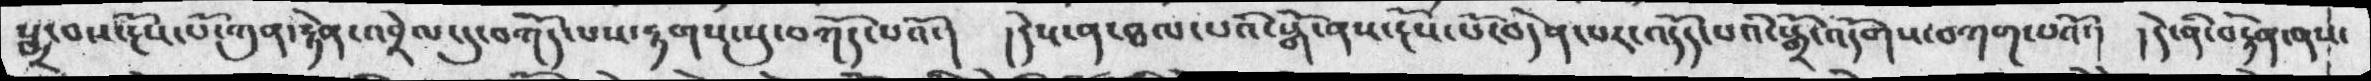སྨྲ་བས་རྔོས་པོ་ཀུན་རྟེན་འབྲེལ་དུ་བཀོད་པས་རྟགས་སུ་བཀོད་པའོ་།  །དེས་ན་ཐལ་པའི་སྒོ་ནས་རྔོས་པོ་བདེན་པར་འདོད་པའི་སྒྲོ་འདོགས་བཀག་པའོ་།  །དེ་ནི་བརྟེན་ནས་
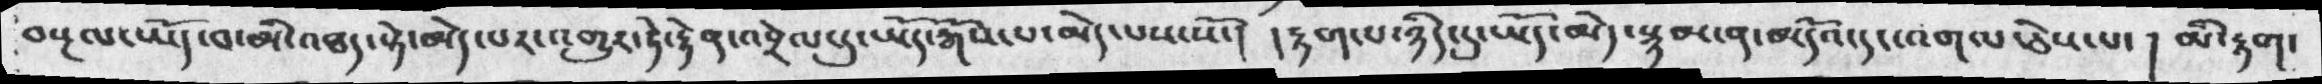བསྔལ་ཡོད་བ་མི་འཐད་སྟེ་མེད་པར་འགྱུར་ཏེ་རྟེན་འབྲེལ་དུ་ཡོད་རྒོས་པ་མེད་པས་སོ་། །རྟག་པ་ཉིད་དུ་ཡོད་མེད་སྙམ་ན་མདོའ་དང་འགལ་ཅེས་པ་། མི་རྟག་
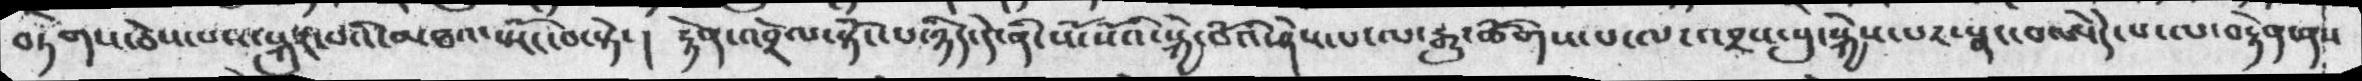བཏགས་ཅེས་པས་སྐུར་བའི་མཐའ་སྤོང་བ་སྟེ་།  རྟེན་འབྲེལ་སྟོང་པ་ཉིད་དེ་ནི་སོ་སོའི་སྐྱེ་བོའི་ཤེས་པ་ལ་རྒྱུ་ཚོགས་པ་ལ་འབྲས་བུ་སྐྱེས་པར་སྣང་བ་ཨེདེ་པ་ལ་བརྟེན་ནས
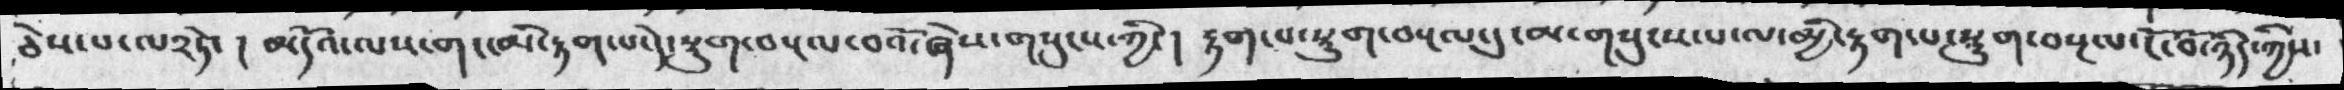ཅེས་པ་ལ༢ཏེ་།  མདོའ་ལས་གང་མི་རྟག་པ་དེ་སྡུག་བསྔལ་བའོ་ཞེས་གསུངས་ཀྱི་། རྟག་པ་སྡུག་བསྔལ་དུ་མ་གསུངས་པ་ལ་མྱི་རྟག་པ་སྡུག་བསྔལ་ངོ་བོ་ཉིད་ཀྱིས་
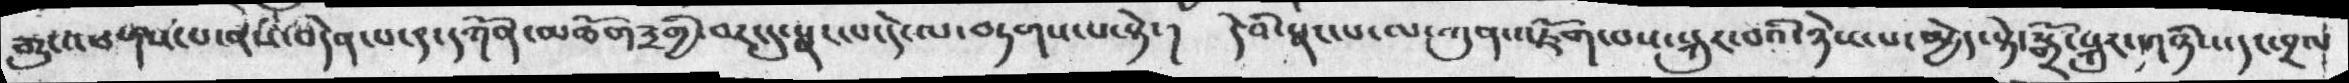རྒྱུ་འཕགས་པ་ནས་བདེན་པ་༩་དཀོན་མཆོག༣གྱི་བར་དུ་སྣང་པ་དེ་ལ་བཏགས་པ་སྟེ་།  དེའི་སྣང་པ་ལ་ཀུན་འཇོག་པས་སྐུར་བའི་ཉེས་པ་མྱེད་སྟེ་སྒྲོ་སྐུར་གཉིས་དང་བྲལ
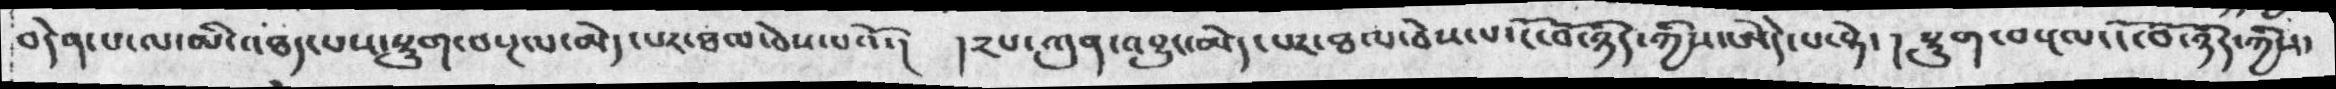བདེན་པ་ལ་མི་འཐད་པས་སྡུག་བསྔལ་མེད་པར་ཐལ་ཅེས་པའོ་།  །༢པ་ཀུན་འབྱུང་མེད་པར་ཐལ་ཅེས་པ་ངོ་བོ་ཉིད་ཀྱིས་ཨེདེ་པ་སྟེ་། སྡུག་བསྔལ་ངོ་བོ་ཉིད་ཀྱིས་
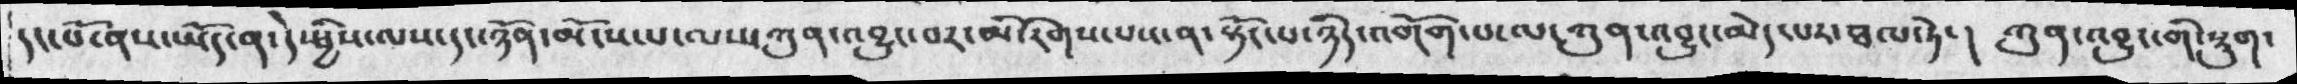དང་པོ་ནས་ཡོད་ན་དེ་ཕྱིས་ལས་དང་ཉོན་མོངས་པ་ལས་ཀུན་འབྱུང་བར་མི་རིགས་པས་ན་སྟོང་པ་ཉིད་འགོག་པ་ལ་ཀུན་འབྱུང་མེད་པར་ཐལ་ཏེ་། ཀུན་འབྱུང་གི་སྡུག་
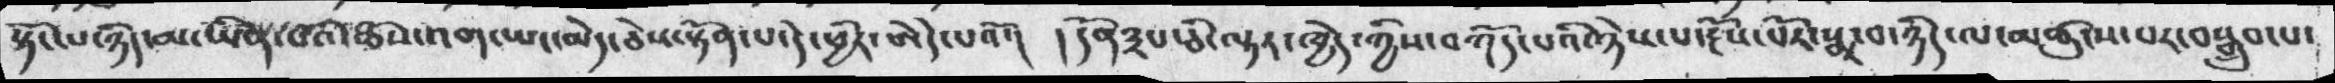སྟོང་པ་ཉིད་མ་ཡིན་པའི་ཆོས་འག་ཡང་མེད་ཅེས་སྟོན་པ་དེ་ཕྱིར་ཨེདེ་པའོ་།  །དོན༣པ་ཅི་ལྟར་ཁྱེད་ཀྱིས་བཀོད་པའི་ཉེས་པ་རྔོས་པོར་སྨྲ་བ་ཉིད་ལ་མཚུངས་པར་བསྒྲུབ་པ་
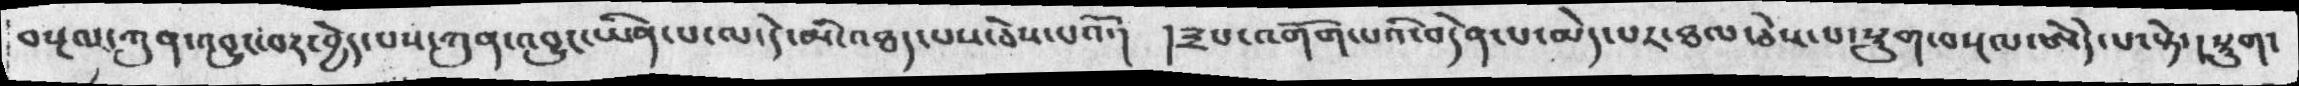བསྔལ་ཀུན་འབྱུང་བར་བྱེད་པས་ཀུན་འབྱུང་ཡིན་པ་ལ་དེ་མི་འཐད་པས་ཅེས་པའོ་།  །༣པ་འགོག་པའི་བདེན་པ་མེད་པར་ཐལ་ཅེས་པ་སྡུག་བསྔལ་ཨེདེ་པ་སྟེ་།སྡུག་
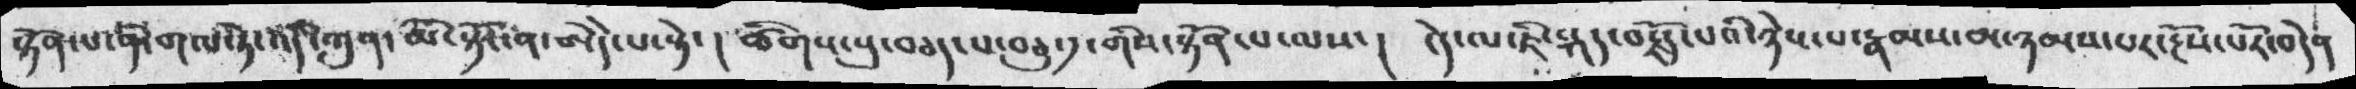སྟོན་པ་ནི་གལ་ཏེ་འདི་ཀུན་མི་སྟོང་ན་ཨེདེ་པ་སྟེ་།  ཚིགས་སུ་བཅད་པ་བཅུ་༡་གིས་སྟོན་པ་ལས། ངེད་ལ་ཇི་སྐད་བརྗོད་པའི་ཉེས་པ་རྣམས་མ་ཉམས་པར་རྔོས་པོར་བདེན
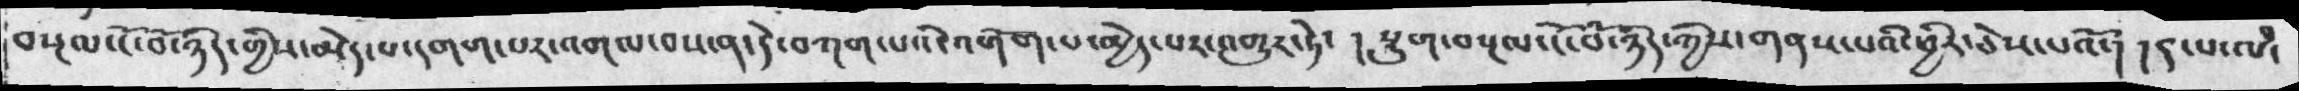བསྔལ་ངོ་བོ་ཉིད་གྱིས་མེད་པ་དགག་པར་འགལ་བས་ན་དེ་བཀག་པའི་འགོག་པ་མྱེད་པར་འགྱུར་ཏེ་ ། སྡུག་བསྔལ་ངོ་བོ་ཉིད་ཀྱིས་གནས་པའི་ཕྱིར་ཅེས་པའོ་། །༩་པ་ལཾ་
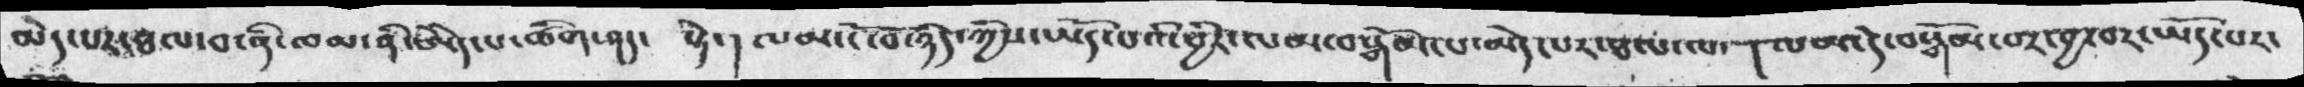མེད་པར་ཐལ་བ་ནི་ལམ་ནི་ཨེདེ་པ་ཚིག་ཤད་  སྟེ་། ལམ་ངོ་བོ་ཉིད་ཀྱིས་ཡོད་པའི་ཕྱིར་ལམ་སྒོམ་པ་མེད་པར་ཐལ་ལ་། ལམ་དེ་བསྒོམ་པར་བྱ་བར་ཡོད་པར་
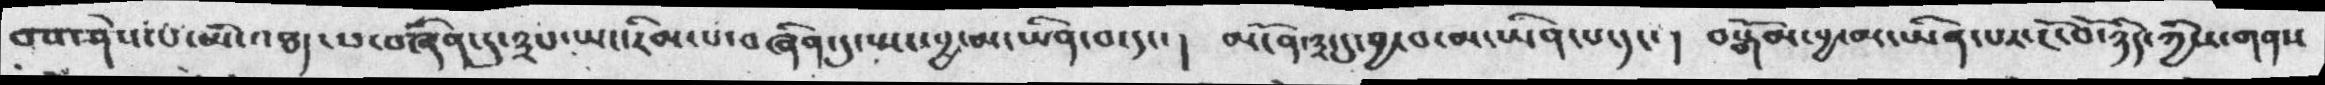བས་ཤེས་པ་མི་འཐད་པ་བཞིན་དུ་༣པ་ཡང་རིམ་པ་བཞིན་དུ་སྤང་བྱ་མ་ཡིན་བ་དང་། མངོན་༣་དུ་བྱ་བ་མ་ཡིན་པ་དང་།  བསྒོམ་བྱ་མ་ཡིན་པར་ངོ་བོ་ཉིད་ཀྱིས་གནས
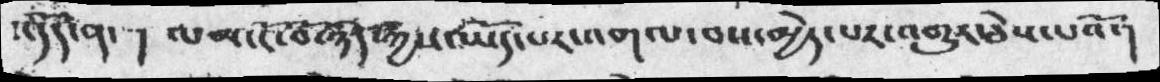འདོད་ན་།  ལམ་ངོ་བོ་ཉིད་ཀྱིས་ཡོད་པར་འགལ་བས་མྱེད་པར་འགྱུར་ཅེས་པའོ་།
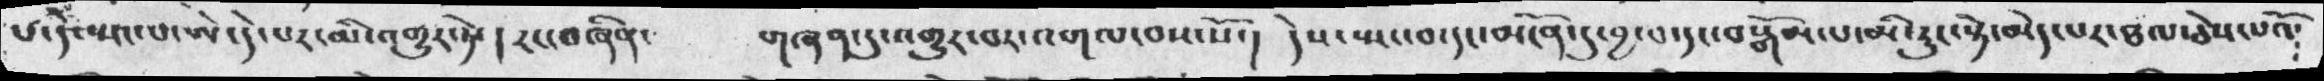པ་དེ་སྤང་པ་ཨེ་དེ་པར་མི་འགྱུར་ཏེ་། རང་བཞིན་    གཞན་དུ་འགྱུར་བར་འགལ་བས་སོ་།  དེས་སྤང་བ་དང་མངོན་དུ་བྱ་བ་དང་བསྒོམ་པ་མི་རུང་སྟེ་མེད་པར་ཐལ་ཅེས་པའོ་
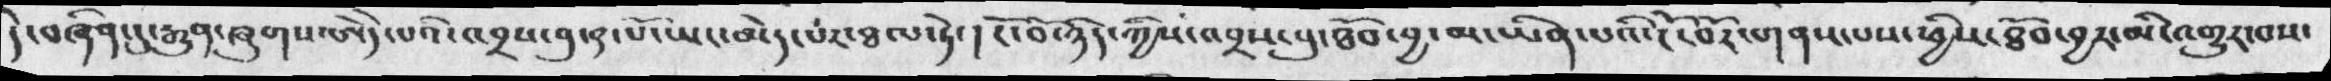དེ་བཞིན་དུ་རྒྱུན་ཞུགས་ཨེདེ་པའི་འབྲས་བུ་༩་པོ་ཡང་མེད་པར་ཐལ་ཏེ་། ངོ་བོ་ཉིད་ཀྱིས་འབྲས་བུ་ཐོབ་བྱ་མ་ཡིན་པའི་ངོ་བོར་གནས་པས་ཕྱིས་ཐོབ་བྱར་མི་འགྱུར་བས་
